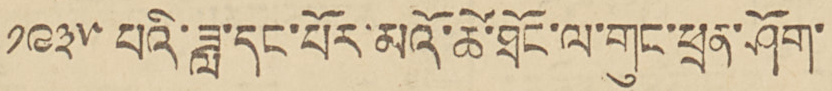༡༩༣༥ པའི་ཟླ་དང་པོར་མའོ་ཚེ་ཐོང་ལ་གུང་ཕྲན་ཤོག་
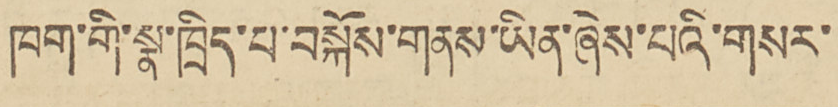ཁག་གི་སྣ་ཁྲིད་པ་བསྐོས་གནས་ཡིན་ཞེས་པའི་གསར་
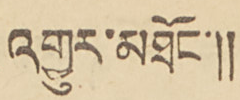འགྱུར་མཐོང་།།
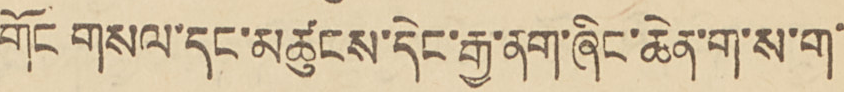གོང གསལ་དང་མཚུངས་དེང་རྒྱ་ནག་ཞིང་ཆེན་ག་ས་ག་
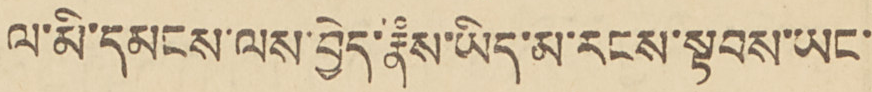ལ་མི་དམངས་ལས་བྱེད་རྣཾས་ཡིད་མ་རངས་སྟབས་ཡང་
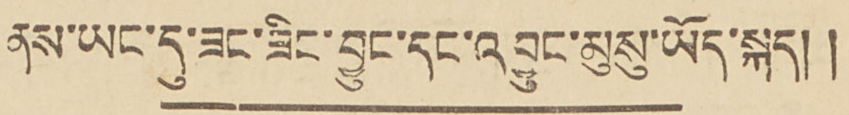ནས་ཡང་དུ་ཟང་ཟིང་བྱུང་དང་འབྱུང་མུསུ་ཡོད་སྐད།།
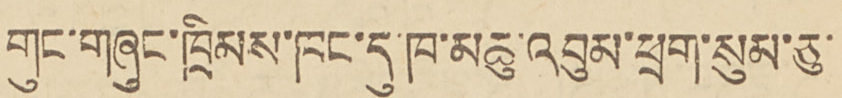གུང་གཞུང་ཁྲིམས་ཁང་དུ་ཁ་མཆུ་འབུམ་ཕྲག་སུམ་ཅུ་
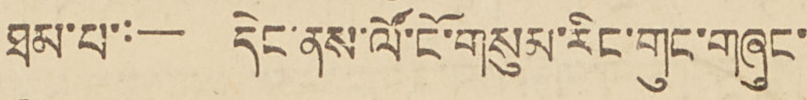ཐམ་པ་:— དེང་ནས་ལོ་ངོ་གསུམ་རིང་གུང་གཞུང་
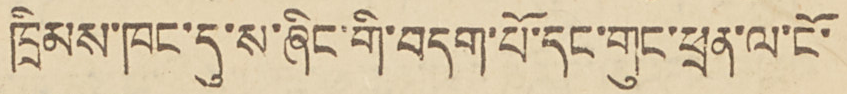ཁྲིམས་ཁང་དུ་ས་ཞིང་གི་བདག་པོ་དང་གུང་ཕྲན་ལ་ངོ་
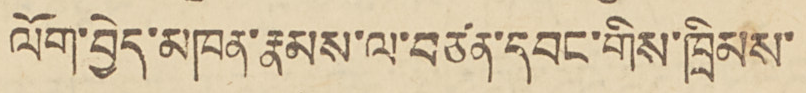ལོག་བྱེད་མཁན་རྣམས་ལ་བཙན་དབང་གིས་ཁྲིམས་
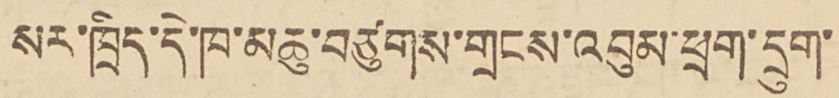སར་ཁྲིད་དེ་ཁ་མཆུ་བཙུགས་གྲངས་འབུམ་ཕྲག་དྲུག་
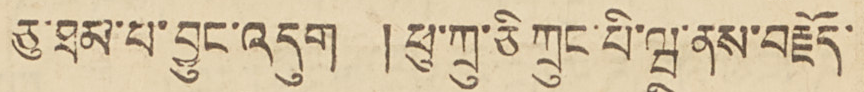ཅུ་ཐམ་པ་བྱུང་འདུག །ཕུ་ཀྲུ་ཅི ཀྲུང་པི་ཝ་ནས་བརྗོད་
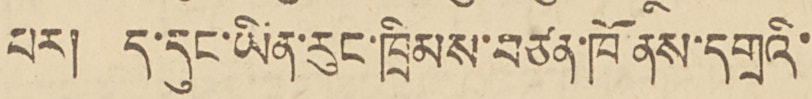པར། ད་དུང་ཡིན་རུང་ཁྲིམས་བཙན་ཁོ་ནས་དགྲའི་
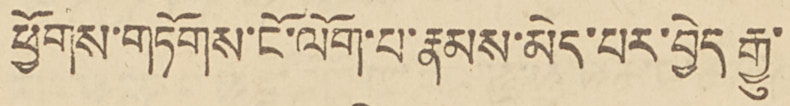ཕྱོགས་གཏོགས་ངོ་ལོག་པ་རྣམས་མེད་པར་བྱེད་རྒྱུ་
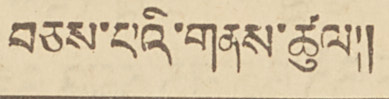བཅས་པའི་གནས་ཚུལ།།
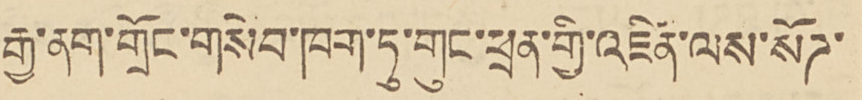རྒྱ་ནག་གྲོང་གསེབ་ཁག་ཏུ་གུང་ཕྲན་གྱི་འཛིན་ལས་སོཌ་
